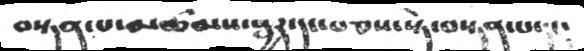བསྟན་པ་མཚམས་སྦྱར་དང་བཅས་སྟེ་བསྟན་པ་དང།
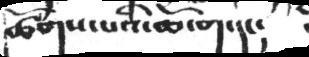ཚོགས་པའི་ཆོ་ག་དང།
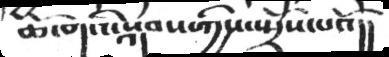ཆོ་གའི་སྐབས་ཀྱིས་སྤྲོད་པའོ།།
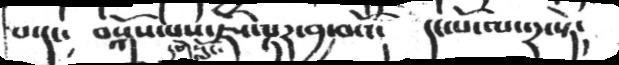པ་དང༴   བསྐོས་པས་ཇི་ལྟར་བྱ་བའོ༴   དང་པོ་ལ་༢་སྟེ༴
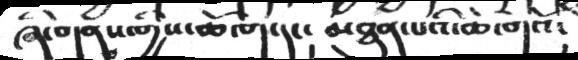ཞི་གནས་གྱིས་ཆོ་ག་དང། མཐུན་པའི་ཆོ་གའོ།
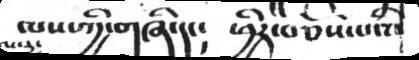ལས་ཀྱི་གཞི་དང༴   ཕྱིར་བཅོས་པའི་
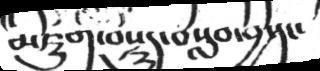མཇུག་བསྡུད་བསླབ་བྱ་དང་
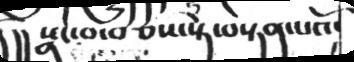།།།སྣང་བ་བཅས་སྟེ་བསྟན་པའོ།
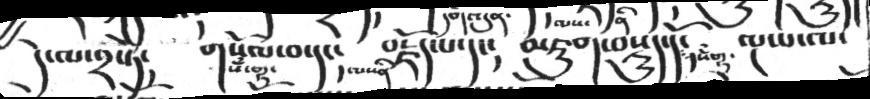དེ་ལ་༢་ཏེ།     གསོལ་བ་དང།    བརྗོད་པ་དང།   མཇུག་བསྡུད་དོ་ཾ།   ལྔ་པ་ལ་
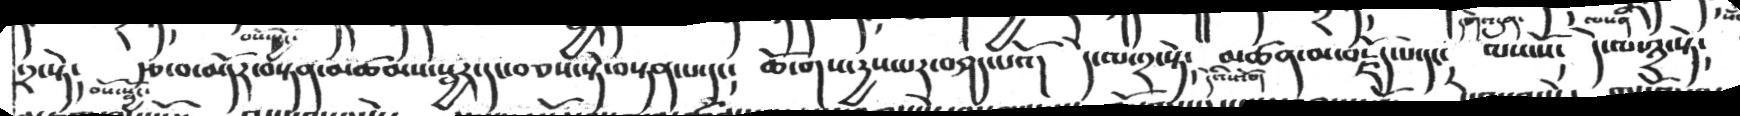༢་སྟེ༴   རྩ་བ་མདོར་བསྟན་མཚམས་སྦྱར་དང་བཅས་སྟེ་བསྟན་པ་དང༴   ཆོ་གས་དྱས་པར་བཤད་པའོ།  དེ་ལ་༢་སྟེ༴  མཚན་མ་བརྗོད་པ་དང༴   ལས་སོ༴   དེ་ལ་༣་སྟེ༴
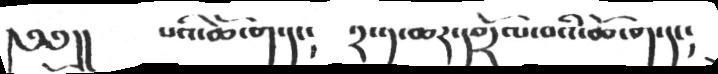༄༅།། པའི་ཆོ་ག་དང། ༢་༡་ཆར་དགྲོལ་བའི་ཆོ་ག་དང།
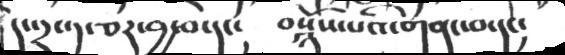དང་དྲ་ད་ཅར་བྱ་བ་དང། བསྙོས་པའི་གནང་བ་དང།
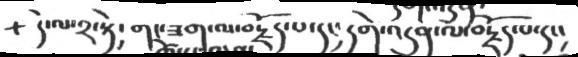དེ་ལ་༢་སྟེ༴   གང་ཟག་ལ་བརྗོད་པ་དང༴  དགེ་འདུན་ལ་བརྗོད་པ་དང༴
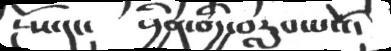དངོས་དང།  བྱིན་གྱི་བརླབ་པའོ།
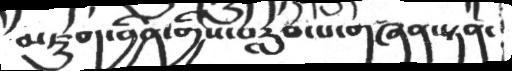མཇུག་བྱིན་གྱིས་བརླབ་པ་གཞན་སྟན་
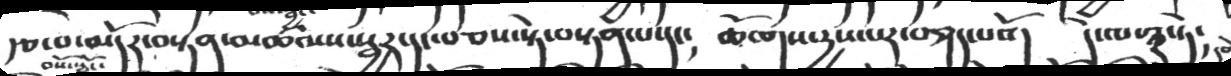རྩ་བ་མདོར་བསྟན་མཚམས་སྦྱར་དང་བཅས་སྟེ་བསྟན་པ་དང༴  ཆོ་ག་དྱས་པར་བཤད་པའོ།  དེ་ལ་༣་ཏེ༴
